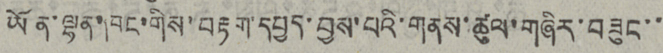ཡོན་ལྷན་ཁང་གིས་བརྟག་དཔྱད་བྱས་པའི་གནས་ཚུལ་གཞིར་བཟུང་་
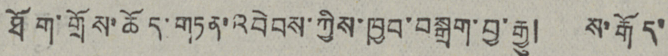ཐོག་གྲོས་ཆོད་གཏན་འབེབས་ཀྱིས་ཁྱབ་བསྒྲག་བྱ་རྒྱུ། ས་རྒོད་
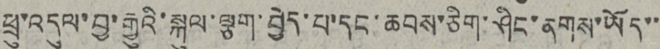ཕྲུ་འདུལ་བྱ་རྒྱུའི་སྐུལ་ལྕག་བྱེད་པ་དང་ཆབས་ཅིག་ཤིང་ནགས་ཡོད་་་
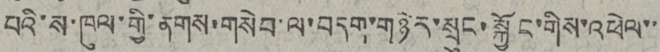པའི་ས་ཁུལ་གྱི་ནགས་གསེབ་ལ་བདག་གཉེར་སྲུང་སྐྱོང་གིས་འཕེལ་་་
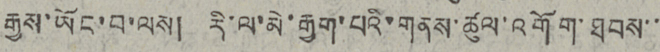རྒྱས་ཡོང་བ་ལས། རི་ལ་མེ་རྒྱག་པའི་གནས་ཚུལ་འགོག་ཐབས་་་
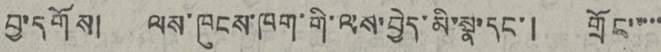བྱ་དགོས། ལས་ཁུངས་ཁག་གི་ལས་བྱེད་མི་སྣ་དང་། གྲོང་་་་་
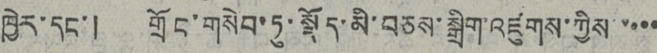ཁྱེར་དང་། གྲོང་གསེབ་ཏུ་སྡོད་མི་བཅས་སྒྲིག་འཛུགས་ཀྱིས་་་་་
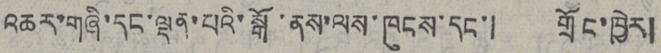འཆར་གཞི་དང་ལྡན་པའི་སྒོ་ནས་ལས་ཁུངས་དང་། གྲོང་ཁྱེར།
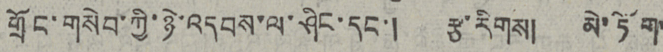གྲོང་གསེབ་ཀྱི་ཉེ་འདབས་ལ་ཤིང་དང་། རྩ་རིགས། མེ་ཏོག་
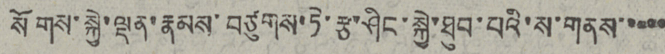སོགས་སྐྱེ་ལྡན་རྣམས་བཙུགས་ཏེ་རྩ་ཤིང་སྐྱེ་ཐུབ་པའི་ས་གནས་་་་་
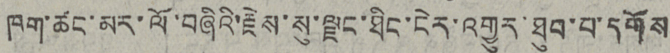ཁག་ཚང་མར་ལོ་བཞིའི་རྗེས་སུ་ལྗང་ཐིང་ངེར་འགྱུར་ཐུབ་པ་དགོས་
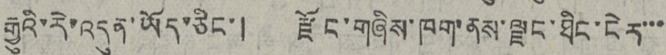རྒྱུའི་རེ་འདུན་ཡོད་ཅིང་། རྫོང་གཞིས་ཁག་ནས་ལྗང་ཐིང་ངེར་་་
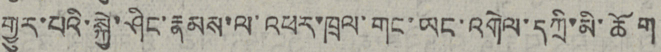གྱུར་པའི་སྐྱེ་ཤིང་རྣམས་ལ་འཕར་ཁྲལ་གང་ཡང་འགེལ་དཀྲི་མི་ཆོག་
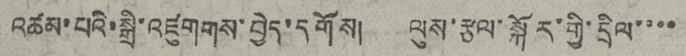འཚམ་པའི་སྒྲི་འཛུགགས་བྱེད་དགོས། ལུས་རྩལ་སྐོར་གྱི་དྲིལ་་་་་
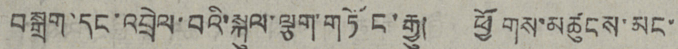བསྒྲག་དང་འབྲེལ་བའི་སྐུལ་ལྕག་གཏོང་རྒྱུ། ཕྱོགས་མཚུངས་མང་་
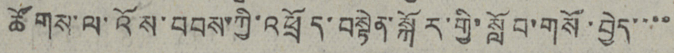ཚོགས་ལ་འོས་བབས་ཀྱི་འཕྲོད་བསྟེན་སྐོར་གྱི་སློབ་གསོ་བྱེད་་་་་
